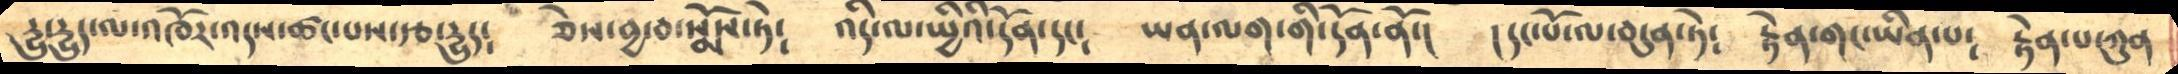དྱུ་དྱུད་ལ་འཁོར་འདས་ཚང་པས་རྩ་དྱུད༴    ཅེས་བྱ་བ་སྨོས་ཏེ༴    འདི་ལ་སྤྱིའི་དོན་དང༴     ཡན་ལག་གི་དོན་ནོ་།     །དང་པོ་ལ་བདུན་ཏེ༴     རྟེན་གང་ཡིན་པ༴    རྟེན་པ་ཀུན
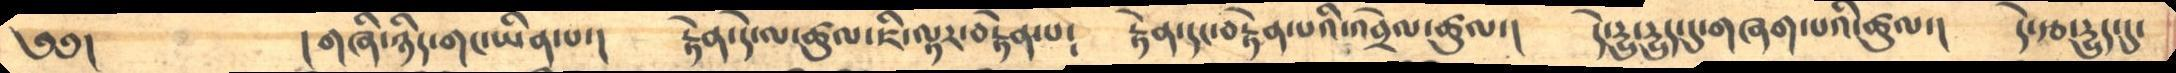༄༅།           ། གཞི་ཉིད་གང་ཡིན་པ་།      རྟེན་དེ་ལ་ཚུལ་ཇི་ལྟར་བརྟེན་པ༴    རྟེན་དང་བརྟེན་པའི་འབྲེལ་ཚུལ་།     དེ་དྱུ་དྱུད་དུ་གཞག་པའི་ཚུལ་།     དེ་རྩ་དྱུད་དུ་
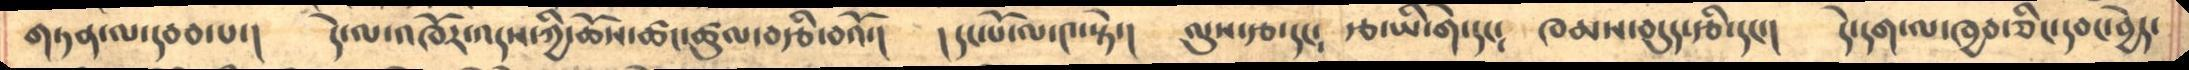གཏན་ལ་དབབ་པ་།     དེ་ལ་འཁོར་འདས་ཀྱི་ཆོས་ཚང་ཚུལ་བརྩི་བའོ་།   །དང་པོ་ལ་༤་སྟེ་།    ལུས་རྩ་དང༴   རྩ་ཡི་གེ་དང༴   ཁམས་བདུད་རྩི་དང་།   དེ་དག་ལ་ཁྱབ་ཅིང་དབང་བྱེད་
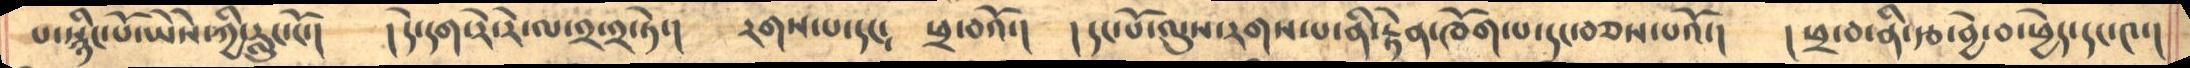པ་སྙིང་པོ་ཡཻས་ཀྱི་རླུང་ངོ་།      །དེ་དག་རེ་རེ་ལ་༢་༢་ཏེ་།    རགས་པ་དང༴    ཕྲ་བའོ་།་    །དང་པོ་ལུས་རགས་པ་ནི་རྟེན་ཁོག་པ་དང་བཅས་པའོ་།     །པྲ་བ་ནི་རྩ་བྱེ་བ་ཕྱེད་དང་༤་།
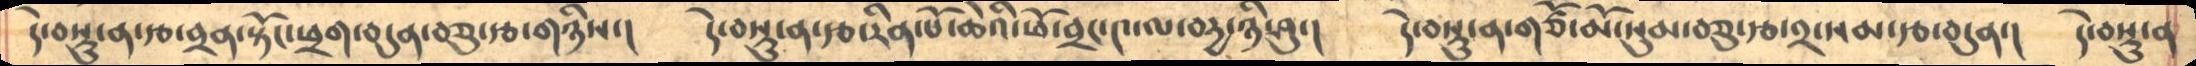དེ་བསྡུ་ན་རྩ་བྲན་སྟོང་ཕྲག་བདུན་བཅུ་རྩ་གཉིས་།     དེ་བསྡུ་ན་རྩ་རིན་པོ་ཆེའི་ཕོ་བྲང་༤་ལ་བདྱ་ཉི་ཤུ་།      དེ་བསྡུ་ན་གཙོ་མོ་སུམ་བཅུ་རྩ་༢་སམ་རྩ་བདུན་།    དེ་བསྡུ་ན
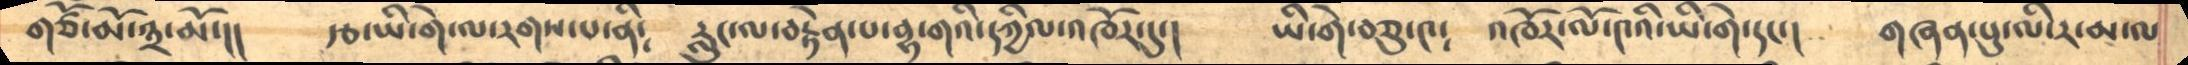གཙོ་མོ་༣་མོ་།།      རྩ་ཡི་གེ་ལ་རགས་པ་ནི༴    རླུང་ལ་བརྟེན་པ་བྷ་གའི་དཀྱིལ་འཁོར་དུ་།      ཡི་གེ་བཅུ་༤༴  འཁོར་ལོ་༤འི་ཡི་གེ་དང་།    གཞན་པུ་ལི་ར་མ་ལ
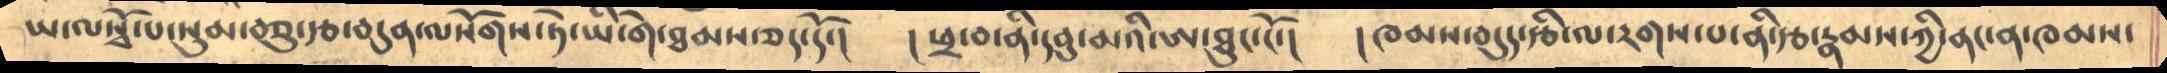ཡ་ལསྭོ་པ་སུམ་བཅུ་རྩ་བདུན་ལསོགས་ཏེ་ཡི་གེ་ཐམས་ཅད་དོ་།     །ཕྲ་བ་ནི་དབུ་མའི་ཨ་ཐུང་ངོ་།     །ཁམས་བདུད་རྩི་ལ་རགས་པ་ནི་རྩ་རྣམས་ཀྱི་ནང་ན་ཁམས་
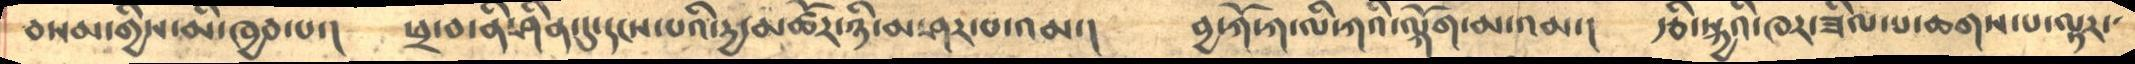བསམ་གྱིས་མི་ཁྱབ་པ་།      ཕྲ་བ་ནི་ཤིན་དུ་དངས་པའི་དྱ་མཚོར་ཉི་མ་ཤར་པ་འམ་།    བྱ་ཀོ་ཀ་ལི་ཀའི་ལྐོག་མ་འམ་།    རྩི་སྐྱའི་ཁར་ཟིལ་པ་ཆགས་པ་ལྟར་
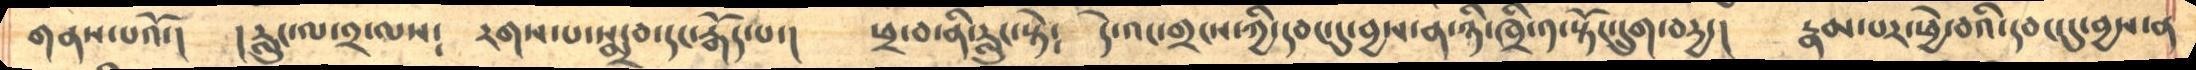གནས་པའོ་།      །རླུང་ལ་༢་ལས༴    རགས་པ་སྨྲ་བ་དང་རྒོད་པ་།     ཕྲ་བ་ནི་རླུང་སྟེ༴     དེ་འང་གྲངས་ཀྱི་དབང་དུ་བྱས་ན་ཉི་ཁྲི་༡་སྟོང་དྲུག་བདྱ་།     རྣམ་པར་ཕྱེ་བའི་དབང་དུ་བྱས་ན
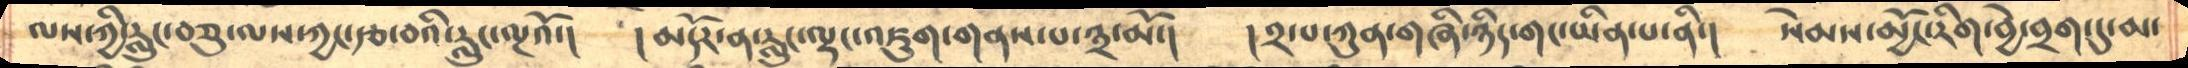ལས་ཀྱི་རླུང་བཅུ་ལས་ཀྱང་རྩ་བའི་རླུང་ལྔའོ་།      །མདོར་ན་རླུང་ལྡང་་འཇུག་གནས་པ་༣་མོ་།    །༢་པ་ཀུན་གཞི་ཉིད་གང་ཡིན་པ་ནི་།        སེམས་མྱོང་རིག་བྱེ་བྲག་དུ་མ་
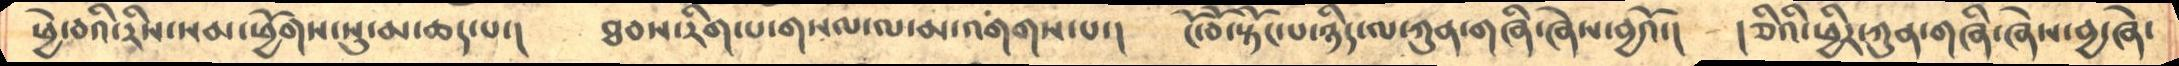ཕྱེ་བའི་རིས་སམ་ཕྱོགས་སུ་མ་ཆད་པ་།     ཐབས་རིག་པ་གསལ་ལ་མ་འགགས་པ་།     ངོ་བོ་སྟོང་པ་ཉིད་ལ་ཀུན་གཞི་ཞེས་བྱའོ་།     །ཅིའི་ཕྱིར་ཀུན་གཞི་ཞེས་བྱ་ཞེ་
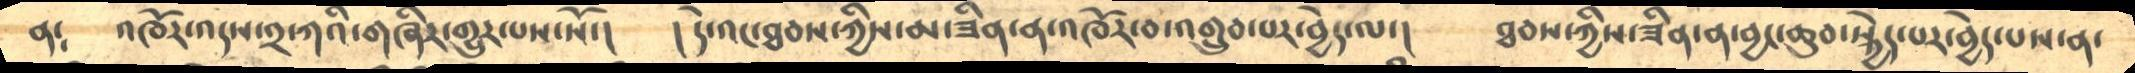ན༴ འཁོར་འདས་༢་ཀའི་གཞིར་གྱུར་པས་སོ་། །དེ་འང་ཐབས་ཀྱིས་མ་ཟིན་ན་འཁོར་བ་འགྲུབ་པར་བྱེད་ལ་། ཐབས་ཀྱིས་ཟིན་ན་བྱང་ཆུབ་སྐྱེད་པར་བྱེད་པས་ན་
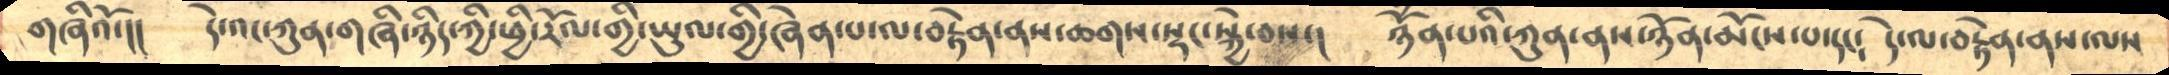གཞིའོ་།། དེ་འང་ཀུན་གཞི་ཉིད་ཀྱི་ཕྱི་རོལ་གྱི་ཡུལ་གྱི་ཞེན་པ་ལ་བརྟེན་ནས་ཆགས་སྡང་སྐྱེ་བས་། ཉོཾན་པའི་ཀུན་ནས་ཉོན་མོངས་པ་དང༴ དེ་ལ་བརྟེན་ནས་ལས
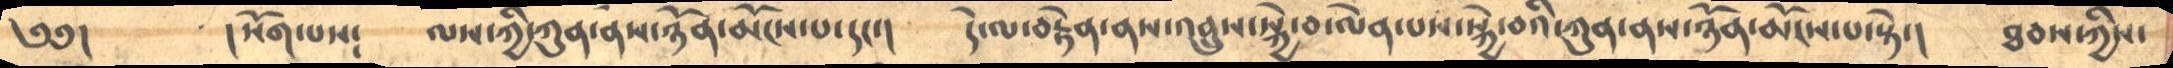༄༅།   །སོག་པས༴ ལས་ཀྱི་ཀུན་ནས་ཉོན་མོངས་པ་དང་། དེ་ལ་བརྟེན་ནས་འབྲུས་སྐྱེ་བ་ལེན་པས་སྐྱེ་བའི་ཀུན་ནས་ཉོན་མོངས་པ་སྟེ་། ཐབས་ཀྱིས་
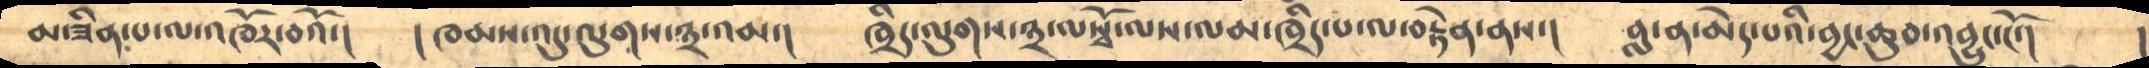མ་ཟིན་པ་ལ་འཁོར་བའོ་། །ཁམས་འདུ་ལུགས་༣་འམ་། ཁྲིད་ལུགས་༣་ལསྭོ་ལས་ལམ་ཁྲིད་པ་ལ་བརྟེན་ནས་། བླ་ན་མེད་པའི་བྱང་ཆུབ་འབྱུང་ངོ་།
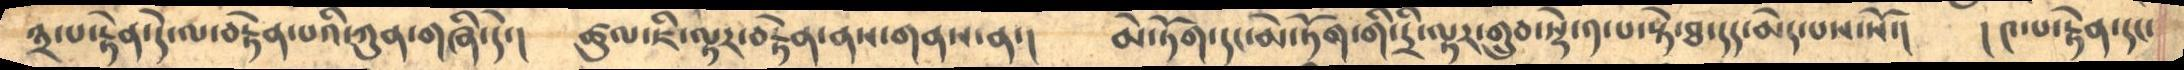༣་པ་རྟེན་དེ་ལ་བརྟེན་པའི་ཀུན་གཞི་དེ་། ཚུལ་ཇི་ལྟར་བརྟེན་ནས་གནས་ན་། མེ་ཏོག་དང་མེ་ཏོག་གི་དྲི་ལྟར་གྲུབ་སྟེ་༡་པ་སྟེ་ཏ་དད་མེད་པས་སོ་། །༤་པ་རྟེན་དང་
